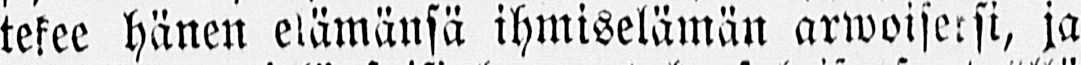tekee hänen elämänsä ihmiselämän arwoiseksi, ja
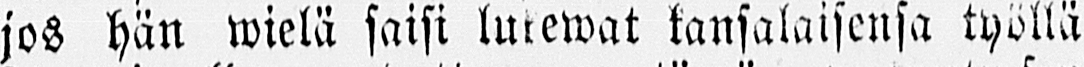jos hän wielä saisi lukewat kansalaisensa työllä
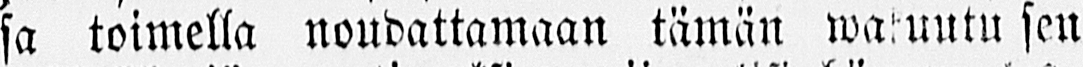ja toimella noudattamaan tämän wakuutu sen
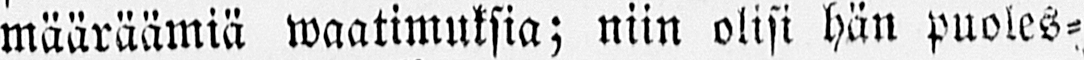määräämiä waatimuksia; niin olisi hän puoles-
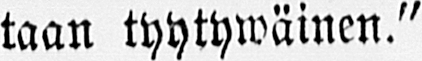taan tyytywäinen."
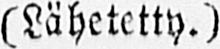(Lähetetty.).
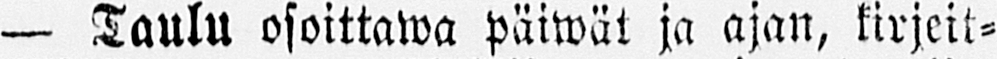— Taulu osoittawa päiwät ja ajan, kirjeit-
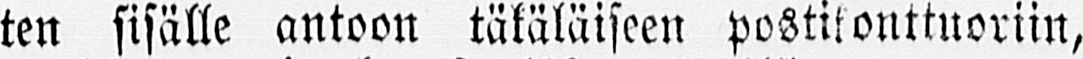ten sisälle antoon täkäläiseen postikonttuoriin,
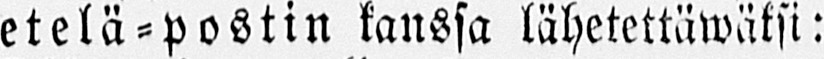etelä-postin kanssa lähetettäwäksi:
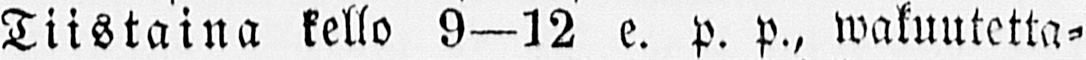Tiistaina kello 9—12 e. p. p., wakuutetta-
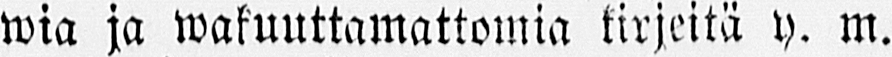wia ja wakuuttamattomia kirjeitä y. m.
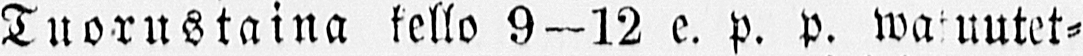Tuorustaina kello 9—12 e. p. p. watuutet-
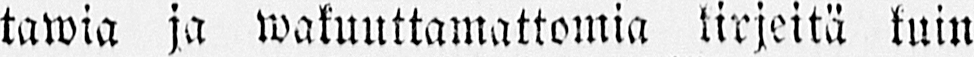tawia ja wakuuttamattomia kirjeitä kuin
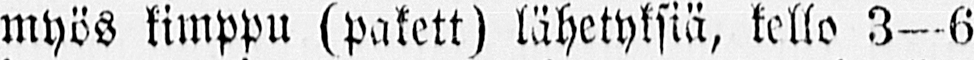myös kimppu (pakett) lähetyksiä, kello 3—6
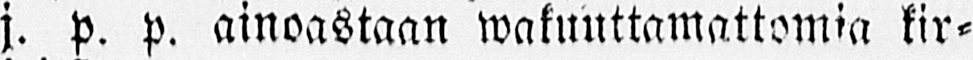j. p. p. ainoastaan wakuuttamattomia kir-
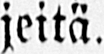jeitä.
